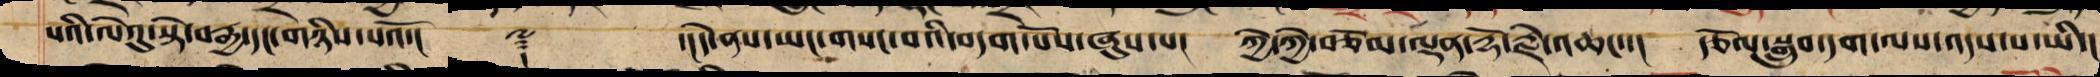པའི་ལེའུ་སྟེ་བརྒྱ་དང་གཉིས་པའོ་།། ༈ ་།དེ་ནས་ཡང་གསང་བའི་བདག་པོས་ཞུས་པ། ཀྱེ་ཀྱེ་བཅོམ་ལྡན་རྡོ་རྗེ་འཆང་་། རྩོལ་སྒྲུབ་དག་ལས་འདས་པ་ཡི་།
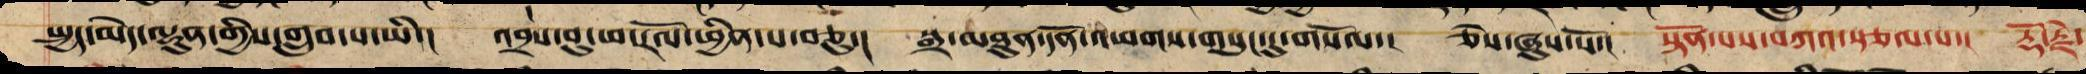སྤྱད་མེད་ལྷུན་གྱིས་གྲུབ་པ་ཡི་། འབྲས་བུ་ཕ་རོལ་ཕྱིན་པ་བཅུ་། སྒྲ་མཐུན་དོན་འཕགས་གསུང་དུ་གསོལ་། ཅེས་ཞུས་སོ་། སྟོན་པས་བཀའ་སྩལ་པ་། རྡོ་རྗེ་
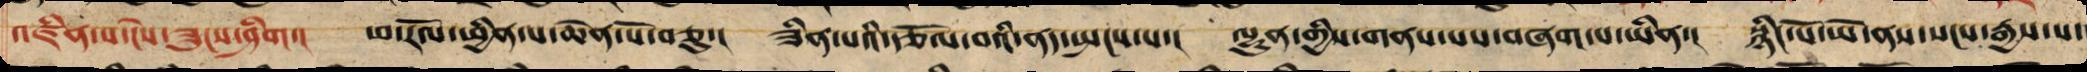འཛིན་པ་ངེས་ཟུངས་ཤིག་། ཕ་རོལ་ཕྱིན་པ་ཆེན་པོ་བཅུ་། ཟིན་པའི་རྩོལ་བའི་ནད་སྤངས་པ་། ལྷུན་གྱིས་གནས་པས་བཞག་པ་ཡིན་། སྙིང་པོ་ཡེ་ནས་སངས་རྒྱས་པ་
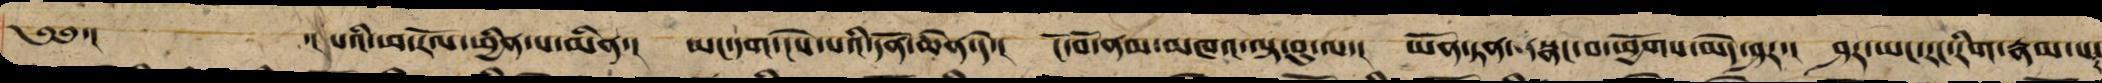༄༅་། ་། པའི་ཕ་རོལ་ཕྱིན་པ་མིན་། ཡང་དག་ངེས་པའི་དོན་ཆེན་དེ་། ངོ་བོ་ནམ་མཁའ་ལྟ་བུ་ལ་། ཡོན་ཏན་སྣང་བ་ཕྱོགས་མེད་ཤར་། ཤར་ཡང་རང་རིག་རྣམ་པ་
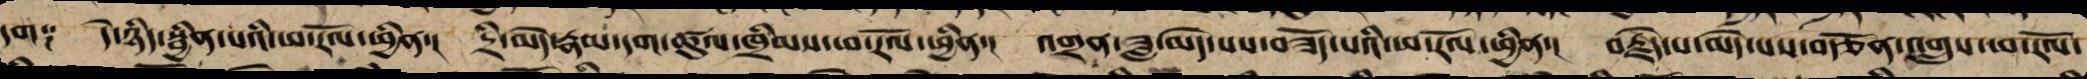དག༑ དེ་ཉིད་སྦྱིན་པའི་ཕ་རོལ་ཕྱིན་། དྲི་མེད་རྣམ་དག་ཚུལ་ཁྲིམས་ཕ་རོལ་ཕྱིན་། འགྲན་ཟླ་མེད་པས་བཟོད་པའི་ཕ་རོལ་ཕྱིན་། བརྗེད་པ་མེད་པས་བརྩོན་འགྲུས་ཕ་རོལ་
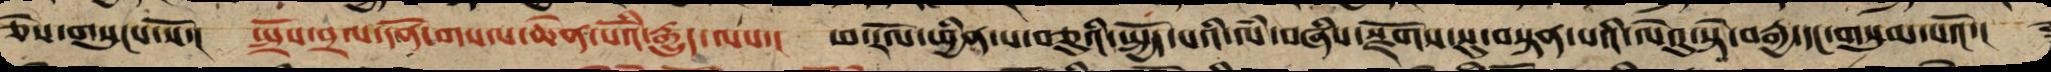ཅེས་གསུངས་སོ་། སྤྲོས་བྲལ་དོན་གསལ་ཆེན་པོའི་རྒྱུད་ལས་། ཕ་རོལ་ཕྱིན་པ་བཅུའི་སྤྱོད་པའི་ལཾ་བཞིས་སྫོགས་སུ་བསྟན་པའི་ལེའུ་སྟེ་བརྒྱ་དང་གསུམ་པའོ་།
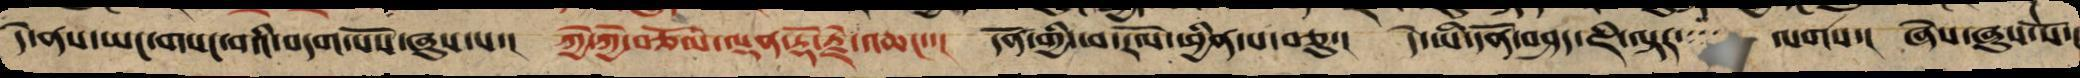དེ་ནས་ཡང་གསང་བའི་བདག་པོས་ཞུས་པ་། ཀྱེ་ཀྱེ་བཅོམ་ལྡན་རྡོ་རྗེ་འཆང་་། དོན་གྱི་ཕ་རོལ་ཕྱིན་པ་བཅུ་། དེ་ཡི་དོན་བཤད་ཇི་ལྟར་་་་ ལགས་། ཞེས་ཞུས་སོ་།
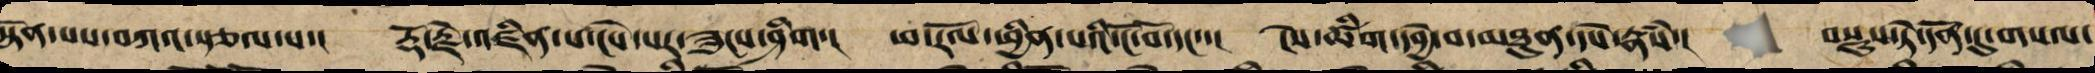སྟོན་པས་བཀའ་སྩལ་པ་། རྡོ་རྗེ་འཛིན་པ་ངེས་པར་ཟུངས་ཤིག་། ཕ་རོལ་ཕྱིན་པའི་ངོ་བོ་དང་་། ངེས་ཚིག་དབྱེ་བ་མཐུན་དཔེ་རྣཾས་། བསྡུས་ཏེ་དོན་དུ་གསལ་
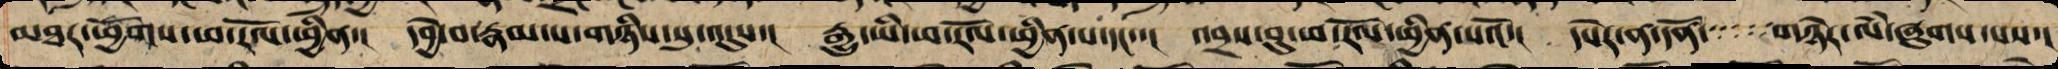མཐར་ཕྱོགས་ཕ་རོལ་ཕྱིན་། དབྱེ་བ་རྣམ་པ་གཉིས་སུ་འདུས་། རྒྱུ་ཡི་ཕ་རོལ་ཕྱིན་པ་དང་་། འབྲས་བུ་ཕ་རོལ་ཕྱིན་པའོ་། དཔེར་ན་དོན་་་་་་གཉེར་ལཾ་ཞུགས་པས་།
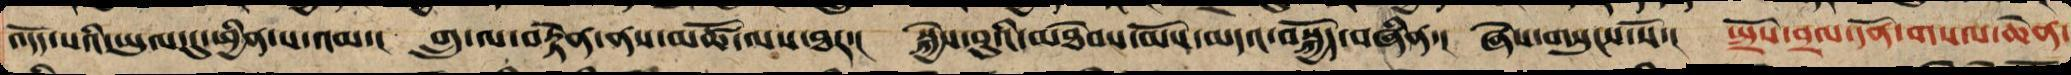འདོད་པའི་ཡུལ་དུ་ཕྱིན་པ་འམ་། གྲུ་ལ་བརྟེན་ནས་མཚོ་ལས་ཐར་། སྐྱེས་བུའི་མཐེབས་མོས་མདའ་བསྐྱོད་བཞིན་། ཞེས་གསུངས་སོ་། སྤྲོས་བྲལ་དོན་གསལ་ཆེན་
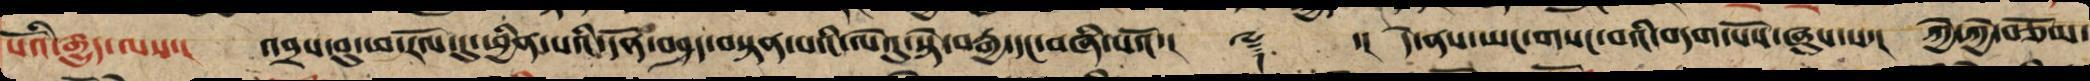པོའི་རྒྱུད་ལས་། འབྲས་བུ་ཕ་རོལ་དུ་ཕྱིན་པའི་དོན་བཤད་བསྟན་པའི་ལེའུ་སྟེ་བརྒྱ་དང་བཞི་པའོ་། ༈ ་། དེ་ནས་ཡང་གསང་བའི་བདག་པོས་ཞུས་པ་། ཀྱེ་ཀྱེ་བཅོམ་
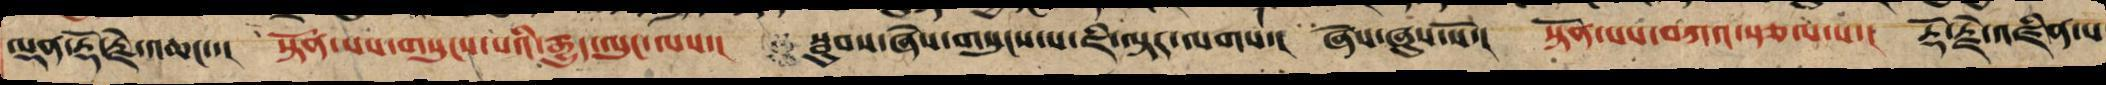ལྡན་རྡོ་རྗེ་འཆང་་། སྟོན་པས་གསུངས་པའི་རྒྱུད་ལུང་ལས་། སྦུབས་ཞེས་གསུངས་པ་ཇི་ལྟར་ལགས་། ཞེས་ཞུས་སོ་། སྟོན་པས་བཀའ་སྩལ་པ་། རྡོ་རྗེ་འཛིན་པ
